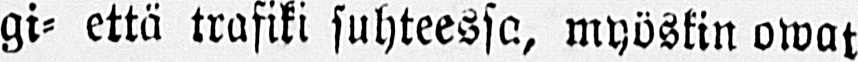gi- että trafiki suhteessa, myöskin owat
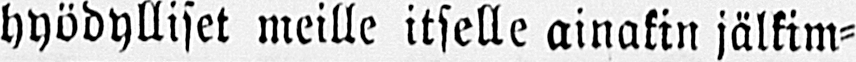hyödylliset meille itselle ainakin jälkim-
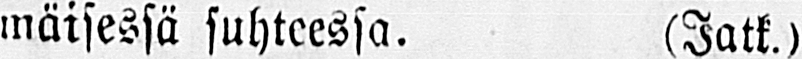mäisessä suhteessa. (Jatk.)
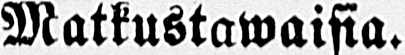Matkustawaisia.
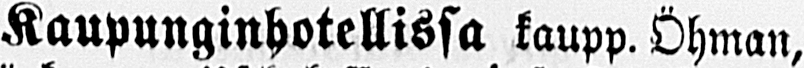Kaupunginhotellissa kaupp. Öhman,
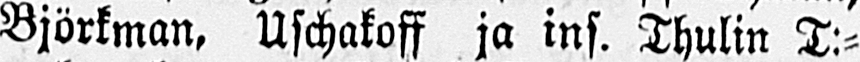Björkman, Uschakoff ja ins. Thulin T:-
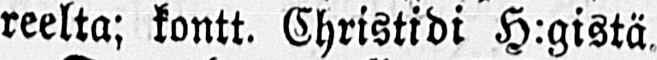reeltä; kontt. Christidi H:gistä,
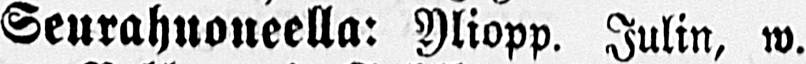Seurahuoneella: Yliopp. Julin, w.
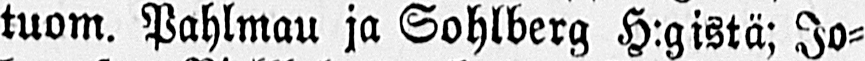tuom. Pahlmau ja Sohlberg H:gistä: Jo-
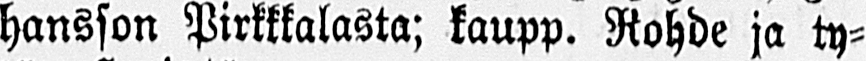hansson Pirkkalasta; kaupp. Rohde ja ty-
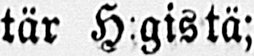tär H:gistä;
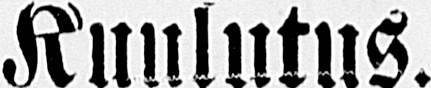Kuulutus.
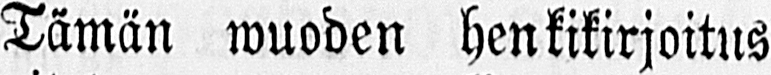Tämän wuoden henkikirjoitus
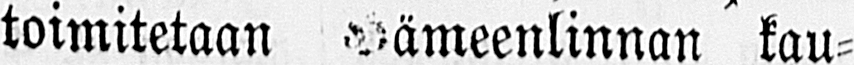toimitetaan Hämeenlinnan kau-
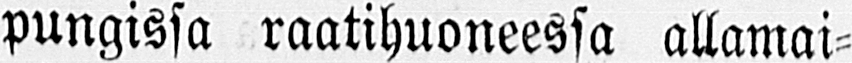pungissa raatihuoneessa allamai-
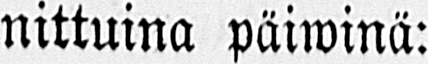nittuina päiwinä:
